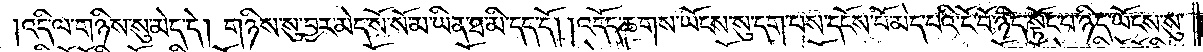འདི་ལ་གཉིས་སུ་མེད་དེ། གཉིས་སུ་བྱར་མེད་སོ་སོ་མ་ཡིན་ཐ་མི་དད་དོ། །འདོད་ཆགས་ཡོངས་སུ་དག་པས་དངོས་པོ་མེད་པའི་ངོ་བོ་ཉིད་སྟོང་པ་ཉིད་ཡོངས་སུ་
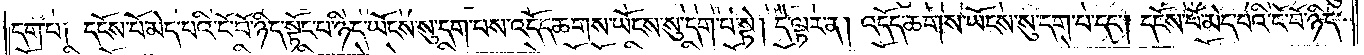དག་པ༑ དངོས་པོ་མེད་པའི་ངོ་བོ་ཉིད་སྟོང་པ་ཉིད་ཡོངས་སུ་དག་པས་འདོད་ཆགས་ཡོངས་སུ་དག་པ་སྟེ། དེ་ལྟར་ན། འདོད་ཆགས་ཡོངས་སུ་དག་པ་དང༌། དངོས་པོ་མེད་པའི་ངོ་བོ་ཉིད་
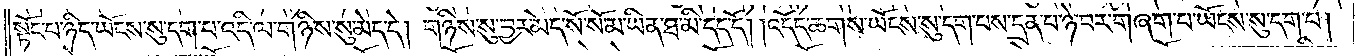སྟོང་པ་ཉིད་ཡོངས་སུ་དག་པ་འདི་ལ་གཉིས་སུ་མེད་དེ། གཉིས་སུ་བྱར་མེད་སོ་སོ་མ་ཡིན་ཐ་མི་དད་དོ། །འདོད་ཆགས་ཡོངས་སུ་དག་པས་དྲན་པ་ཉེ་བར་བཞག་པ་ཡོངས་སུ་དག་པ།
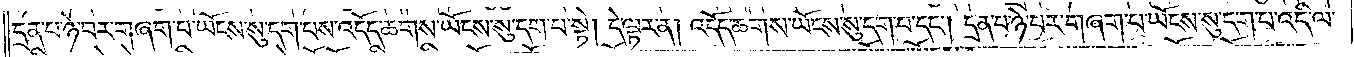དྲན་པ་ཉེ་བར་གཞག་པ་ཡོངས་སུ་དག་པས་འདོད་ཆགས་ཡོངས་སུ་དག་པ་སྟེ། དེ་ལྟར་ན། འདོད་ཆགས་ཡོངས་སུ་དག་པ་དང༌། དྲན་པ་ཉེ་བར་གཞག་པ་ཡོངས་སུ་དག་པ་འདི་ལ་
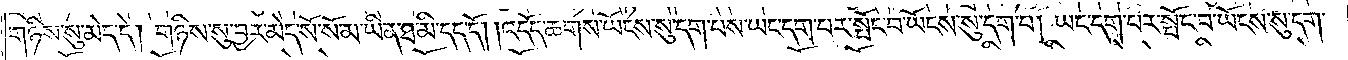གཉིས་སུ་མེད་དེ། གཉིས་སུ་བྱར་མེད་སོ་སོ་མ་ཡིན་ཐ་མི་དད་དོ། །འདོད་ཆགས་ཡོངས་སུ་དག་པས་ཡང་དག་པར་སྤོང་བ་ཡོངས་སུ་དག་པ། ཡང་དག་པར་སྤོང་བ་ཡོངས་སུ་དག་
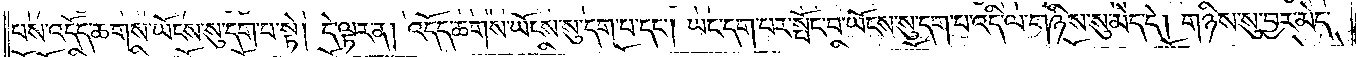པས་འདོད་ཆགས་ཡོངས་སུ་དག་པ་སྟེ། དེ་ལྟར་ན། འདོད་ཆགས་ཡོངས་སུ་དག་པ་དང༌། ཡང་དག་པར་སྤོང་བ་ཡོངས་སུ་དག་པ་འདི་ལ་གཉིས་སུ་མེད་དེ། གཉིས་སུ་བྱར་མེད་
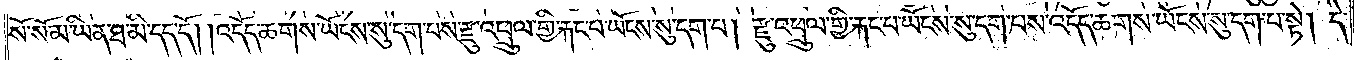སོ་སོ་མ་ཡིན་ཐ་མི་དད་དོ། །འདོད་ཆགས་ཡོངས་སུ་དག་པས་རྫུ་འཕྲུལ་གྱི་རྐང་པ་ཡོངས་སུ་དག་པ། རྫུ་འཕྲུལ་གྱི་རྐང་པ་ཡོངས་སུ་དག་པས་འདོད་ཆགས་ཡོངས་སུ་དག་པ་སྟེ། དེ་
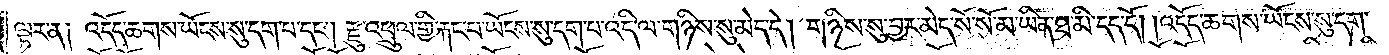ལྟར་ན༑ འདོད་ཆགས་ཡོངས་སུ་དག་པ་དང༌། རྫུ་འཕྲུལ་གྱི་རྐང་པ་ཡོངས་སུ་དག་པ་འདི་ལ་གཉིས་སུ་མེད་དེ། གཉིས་སུ་བྱར་མེད་སོ་སོ་མ་ཡིན་ཐ་མི་དད་དོ། །འདོད་ཆགས་ཡོངས་སུ་དག་
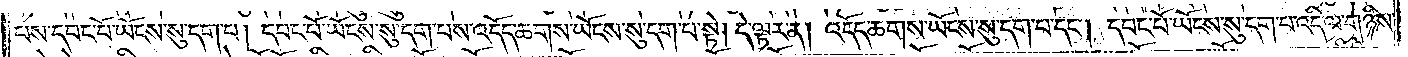པས་དབང་པོ་ཡོངས་སུ་དག་པ། དབང་པོ་ཡོངས་སུ་དག་པས་འདོད་ཆགས་ཡོངས་སུ་དག་པ་སྟེ། དེ་ལྟར་ན། འདོད་ཆགས་ཡོངས་སུ་དག་པ་དང༌། དབང་པོ་ཡོངས་སུ་དག་པ་འདི་ལ་གཉིས་
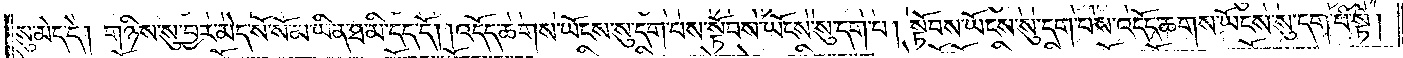སུ་མེད་དེ། གཉིས་སུ་བྱར་མེད་སོ་སོ་མ་ཡིན་ཐ་མི་དད་དོ། །འདོད་ཆགས་ཡོངས་སུ་དག་པས་སྟོབས་ཡོངས་སུ་དག་པ། སྟོབས་ཡོངས་སུ་དག་པས་འདོད་ཆགས་ཡོངས་སུ་དག་པ་སྟེ།
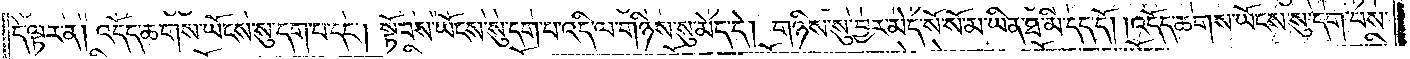དེ་ལྟར་ན། འདོད་ཆགས་ཡོངས་སུ་དག་པ་དང༌། སྟོབས་ཡོངས་སུ་དག་པ་འདི་ལ་གཉིས་སུ་མེད་དེ། གཉིས་སུ་བྱར་མེད་སོ་སོ་མ་ཡིན་ཐ་མི་དད་དོ། །འདོད་ཆགས་ཡོངས་སུ་དག་པས་
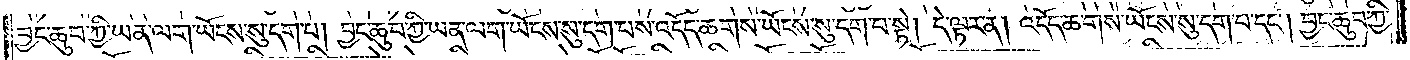བྱང་ཆུབ་ཀྱི་ཡན་ལག་ཡོངས་སུ་དག་པ། བྱང་ཆུབ་ཀྱི་ཡན་ལག་ཡོངས་སུ་དག་པས་འདོད་ཆགས་ཡོངས་སུ་དག་པ་སྟེ། དེ་ལྟར་ན། འདོད་ཆགས་ཡོངས་སུ་དག་པ་དང༌། བྱང་ཆུབ་ཀྱི་
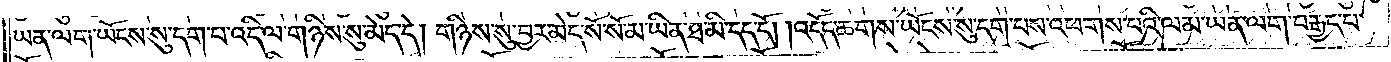ཡན་ལག་ཡོངས་སུ་དག་པ་འདི་ལ་གཉིས་སུ་མེད་དེ། གཉིས་སུ་བྱར་མེད་སོ་སོ་མ་ཡིན་ཐ་མི་དད་དོ། །འདོད་ཆགས་ཡོངས་སུ་དག་པས་འཕགས་པའི་ལམ་ཡན་ལག་བརྒྱད་པ་
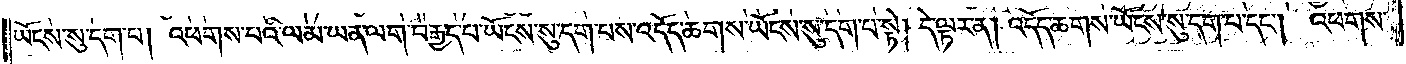ཡོངས་སུ་དག་པ། འཕགས་པ་དི་ལམ་ཡན་ལག་བརྒྱད་པ་ཡོངས་སུ་དག་པས་འདོད་ཆགས་ཡོངས་སུ་དག་པ་སྟེ། དེ་ལྟར་ན། འདོད་ཆགས་ཡོངས་སུ་དག་པ་དང༌། འཕགས་
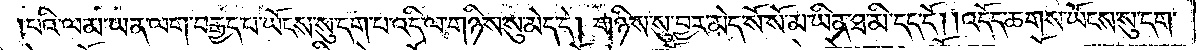པའི་ལམ་ཡན་ལག་བརྒྱད་པ་ཡོངས་སུ་དག་པ་འདི་ལ་གཉིས་སུ་མེད་དེ། གཉིས་སུ་བྱར་མེད་སོ་སོ་མ་ཡིན་ཐ་མི་དད་དོ། །འདོད་ཆགས་ཡོངས་སུ་དག་
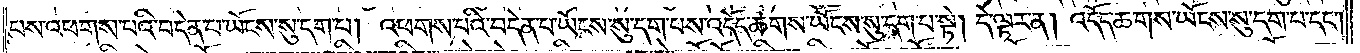པས་འཕགས་པའི་བདེན་པ་ཡོངས་སུ་དག་པ། འཕགས་པའི་བདེན་པ་ཡོངས་སུ་དག་པས་འདོད་ཆགས་ཡོངས་སུ་དག་པ་སྟེ། དེ་ལྟར་ན། འདོད་ཆགས་ཡོངས་སུ་དག་པ་དང༌།
